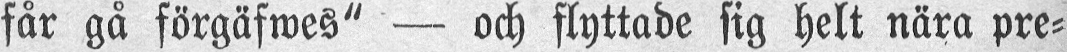får gå förgäfwes" — och flyttade sig helt närä pre-
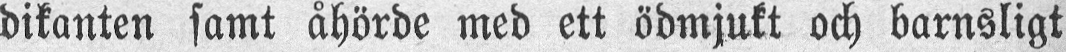dikanten samt åhörde med ett ödmjukt och barnsligt
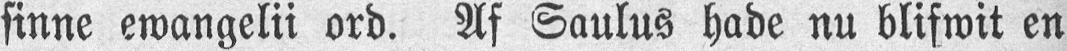sinne ewangelii ord. Af Saulus hade nu blifwit en
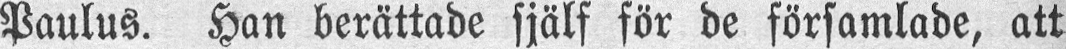Paulus. Han berättade själf för de församlade, att
